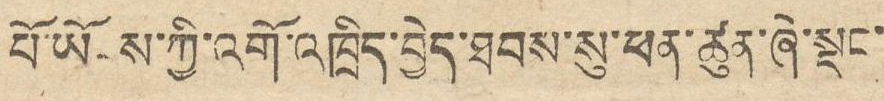པོ་ཡོངས་ཀྱི་འགོ་འཁྲིད་བྱེད་ཐབས་སུ་ཕན་ཚུན་ཞེ་སྡང་
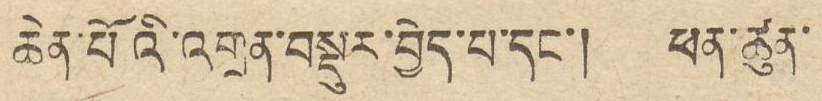ཆེན་པོའི་འགྲན་བསྡུར་བྱེད་པ་དང་། ཕན་ཚུན་
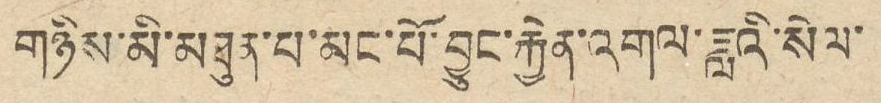གཉིས་མི་མཐུན་པ་མང་པོ་བྱུང་རྐྱེན་འགལ་ཟླའི་སེལ་
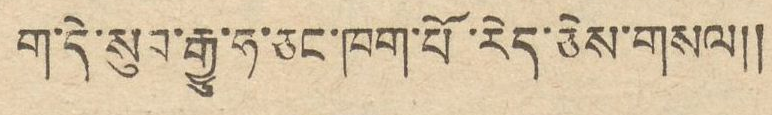ག་དེ་སུབ་རྒྱུ་ཧ་ཅང་ཁག་པོ་རེད་ཅེས་གསལ།།
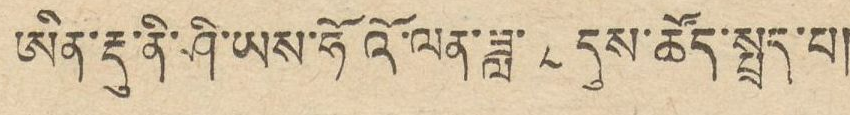ཨིན་རྡུ་ནི་ཤི་ཡས་ཧོའོ་ལན་ཟླ་ ༨ དུས་ཚོད་སྤྲད་པ།
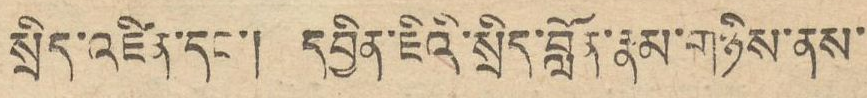སྲིད་འཛིན་དང་། དབྱིན་ཇིའི་སྲིད་བློན་རྣམ་གཉིས་ནས་
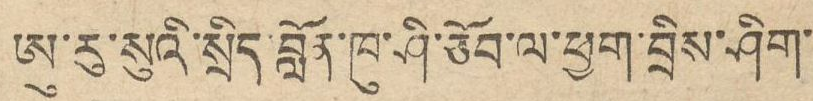ཨུ་རུ་སུའི་སྲིད་བློན་ཁུ་ཤི་ཅོབ་ལ་ཕྱག་བྲིས་ཤིག་
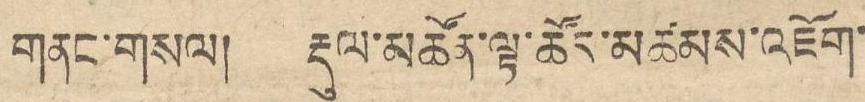གནང་གསལ། རྡུལ་མཚོན་ལྟ་ཚོར་མཚམས་འཇོག་
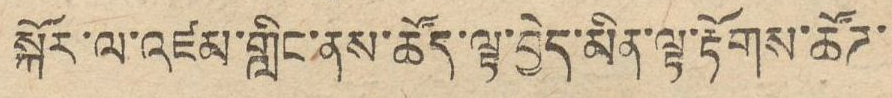སྐོར་ལ་འཛམ་གླིང་ནས་ཚོད་ལྟ་བྱེད་མིན་ལྟ་རྟོགས་ཚོཌ་
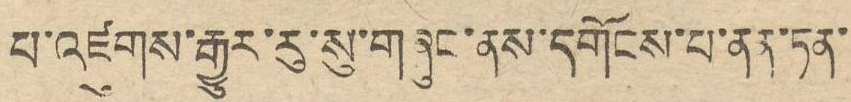པ་འཛུགས་རྒྱུར་རུ་སུ་གཞུང་ནས་དགོངས་པ་ནན་ཏན་
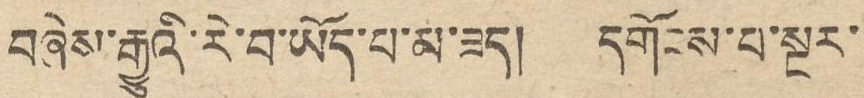བཞེས་རྒྱུའི་རེ་བ་ཡོད་པ་མ་ཟད། དགོངས་པ་སྔར་
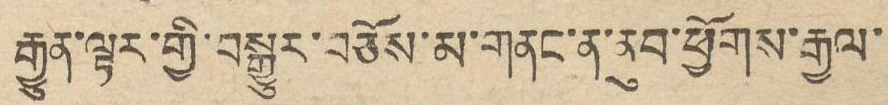རྒྱུན་ལྟར་གྱི་བསྒྱུར་བཅོས་མ་གནང་ན་ནུབ་ཕྱོགས་རྒྱལ་
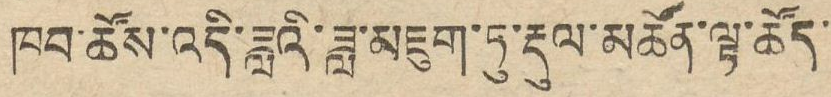ཁབ་ཚོས་འདི་ཟླའི་ཟླ་མཇུག་ཏུ་རྡུལ་མཚོན་ལྟ་ཚོད་
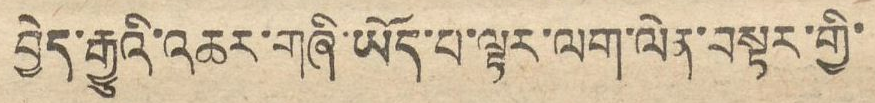བྱེད་རྒྱུའི་འཆར་གཞི་ཡོད་པ་ལྟར་ལག་ལེན་བསྟར་གྱི་
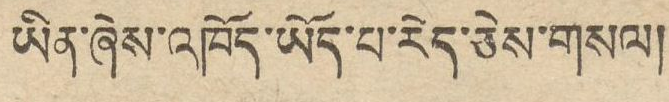ཡིན་ཞེས་འཁོད་ཡོད་པ་རེད་ཅེས་གསལ།
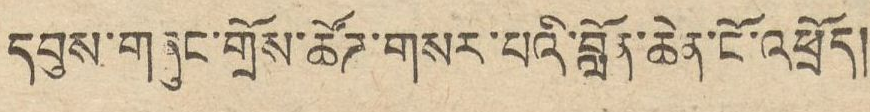དབུས་གཞུང་གྲོས་ཚོཊ་གསར་པའི་བློན་ཆེན་ངོ་འཕྲོད།
